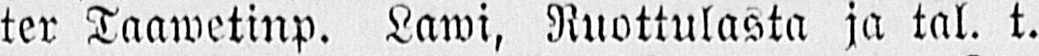ter Taawetinp. Lawi, Ruottulasta ja tal. t.
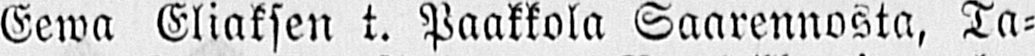Eewa Eliaksen t. Paakkola Saarennosta, Ta-
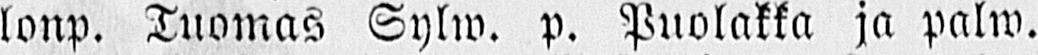lonp. Tuomas Sylw. p. Puolakka ja palw.
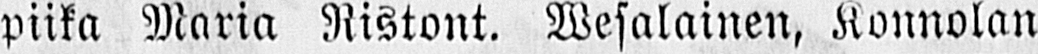piika Maria Ristont. Wesalainen, Konnolan
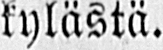kylästä.
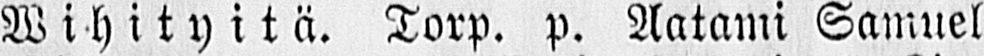Wihityitä. Torp. p. Aatami Samuel
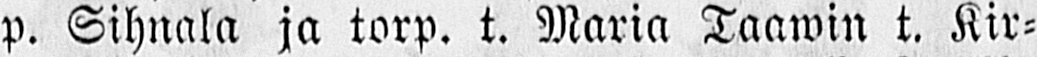p. Sihnala ja torp. t. Maria Taawin t. Kir-
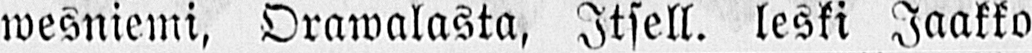wesniemi, Orawalasta, Itsell. leski Jaakko
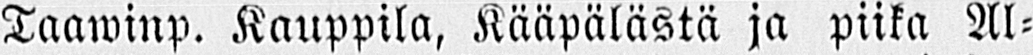Taawinp. Kauppila, Kääpälästä ja piika Al-
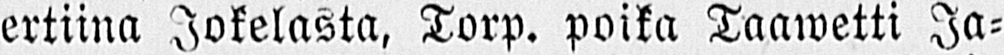bertiina Jokelasta, Torp. poika Taawetti Ja-
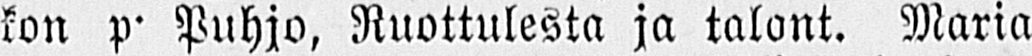kon p. Puhjo, Ruottulesta ja talont. Maria
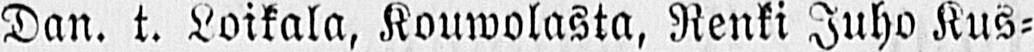Dan. t. Loikala, Kouwolasta, Renki Juho Kus-
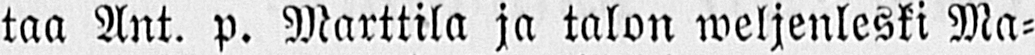taa Ant. p. Marttila ja talon weljenleski Ma-
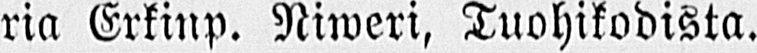ria Erkinp. Niweri, Tuohikodista.
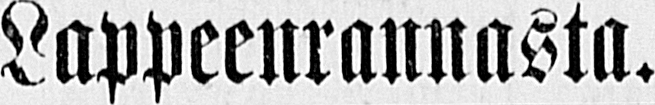Lappeenrannasta.
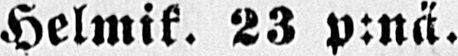Helmik. 23 p:nä.
